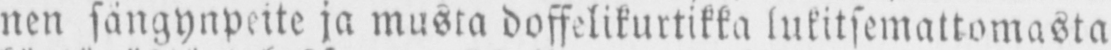nen sängynpeite ja musta doffelikurtikka lukitsemattomasta
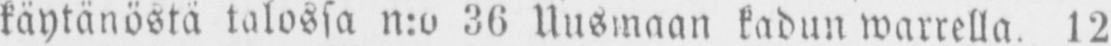käytänöstä talossa n:o 36 Uusimaan kadun warrella 12
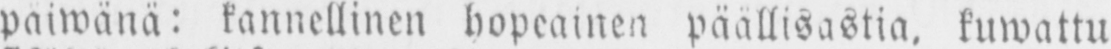paiwänä: kannellinen hopeainen päällisastia, kuwattu
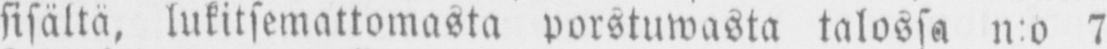sisältä, lukitsemattomasta porstuwasta talossa n:o 7
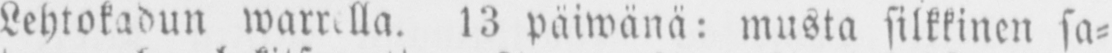Lehtokadun warrella. 13 päiwänä: musta silkkinen sa-
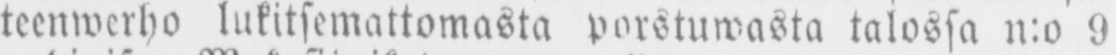teenwerho lukitsemattomasta porstuwasta talossa n:o 9
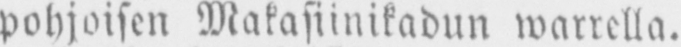pohjoisen Makasiinikadun warrella.
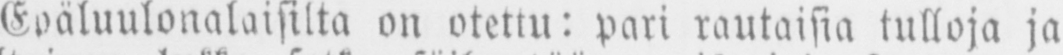Epäluulonalaisilta on otettu: pari rautaisia tulloja ja
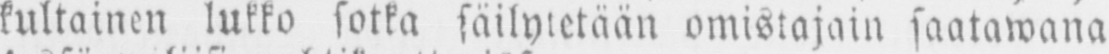kultainen lukko sotka säilyletään omistajain saatawana
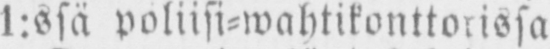1:ssä poliisi-wahtikonttorissa.
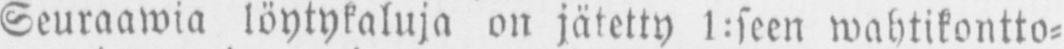Seuraawia löytykaluja on jätetty 1:seen wahtikontto-
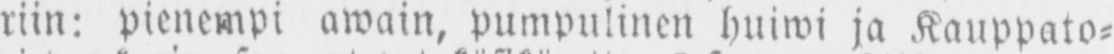riin: pienempi awain, pumpulinen huiwi ja Kauppato-
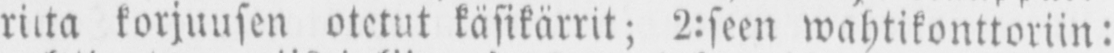rilta korjuusen otetut käsikärrit; 2:seen wahtikonttoriin:
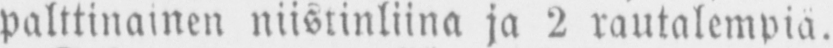palttinainen niistinliina ja 2 rautalempiä.
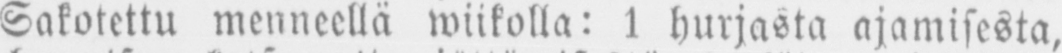Sakotettu menneellä wiikolla: 1 hurjasta ajamisesta,
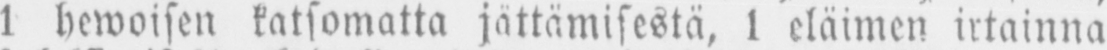1 hewoisen katsomatta jättämisestä, 1 eläimen irtainna
